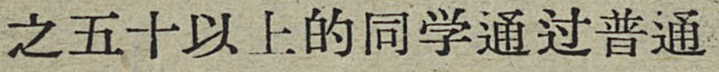之五十以上的同学通过普通
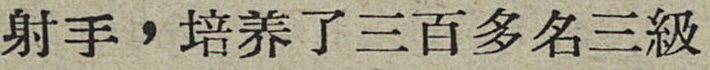射手，培养了三百多名三級
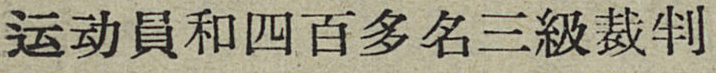运动員和四百多名三級裁判
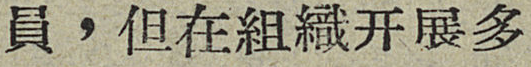員，但在組織开展多
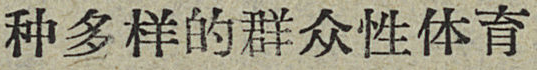种多样的群众性体育
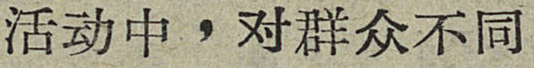活动中，对群众不同
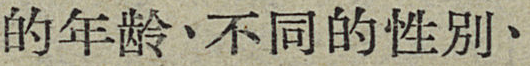的年龄、不同的性别、
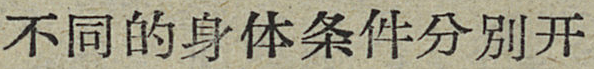不同的身体条件分别开
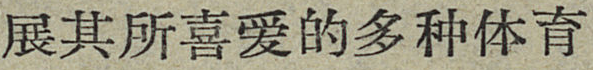展其所喜爱的多种体育
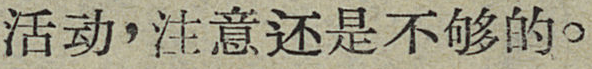活动，注意还是不够的。
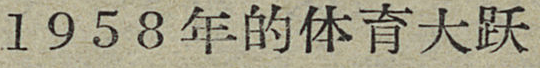1958年的体育大跃
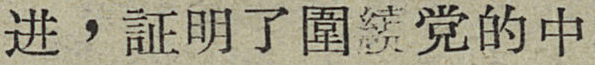进，証明了圍繞党的中
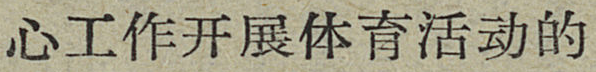心工作开展体育活动的
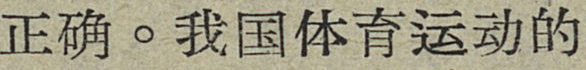正确。我国体育运动的
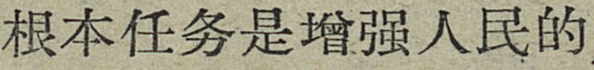根本任务是增强人民的
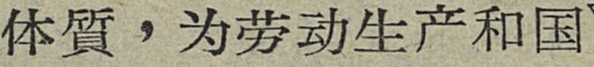体質，为劳动生产和国
